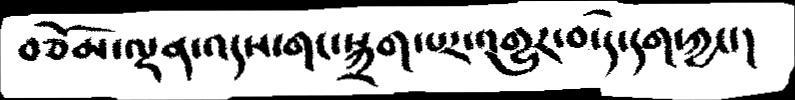བཅོམ་ལྡན་འདས་གང་སྐྲག་པར་འགྱུར་བ་དེ་དག་ཀྱང་།
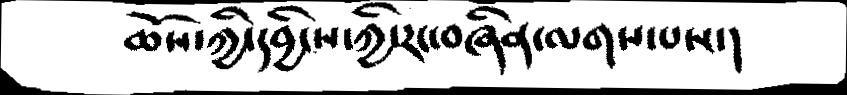ཆོས་ཀྱི་དབྱིངས་ཀྱི་རང་བཞིན་ལགས་པས་།
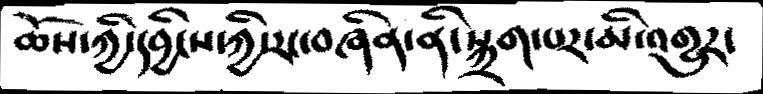ཆོས་ཀྱི་དབྱིངས་ཀྱི་རང་བཞིན་ནི་སྐྲག་པར་མི་འགྱུར་
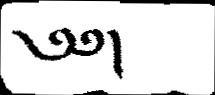༄༅།
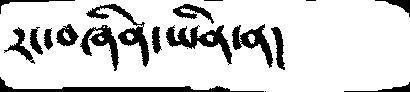རང་བཞིན་ཡིན་ན།
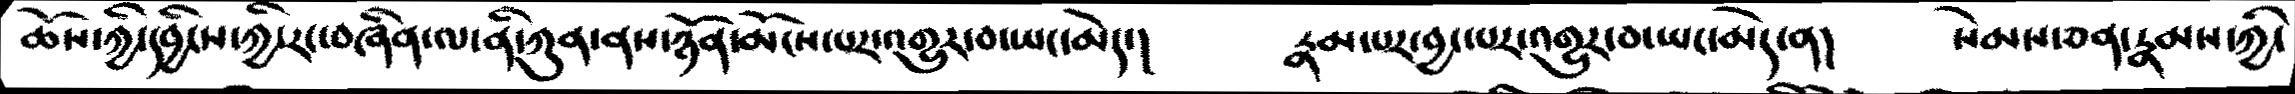ཆོས་ཀྱི་དབྱིངས་ཀྱི་རང་བཞིན་ནི་ཀུན་ནས་ཉོན་མོངས་པར་འགྱུར་བ་ཡང་མེད་།  རྣམ་པར་བྱང་པར་འགྱུར་བ་ཡང་མེད་ན།   སེམས་ཅན་རྣམས་ཀྱི་
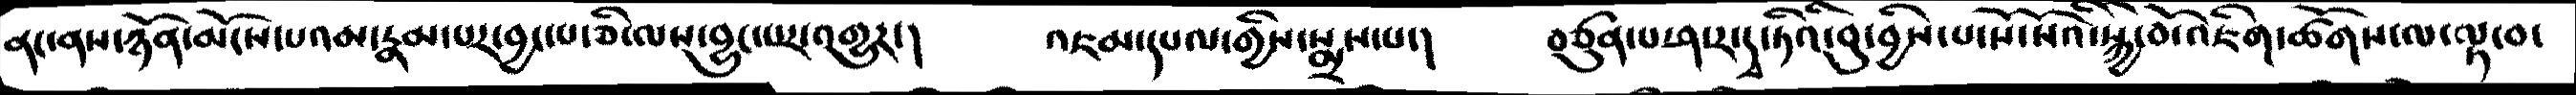ནང་ནས་ཉོན་མོངས་པའམ་རྣམ་པར་བྱང་པ་ཅི་ལས་བྱུང་པར་འགྱུར་།    འཇམ་དཔལ་གྱིས་སྨྲས་པ་།  བཙུན་པ་ཤ་ར་དྭ་ཏིའི་བུ་བྱིས་པ་སོ་སོའི་སྐྱེ་བོ་འཇིག་ཚོགས་ལ་ལྟ་བ་
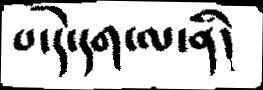པ་དེ་དག་ལ་ནི།
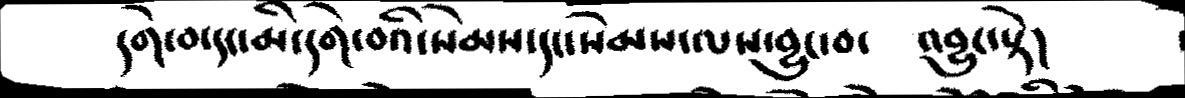དགེ་བ་དང་མི་དགེ་བའི་སེམས་དང་སེམས་ལས་བྱུང་བ་   འབྱུང་སྟེ།
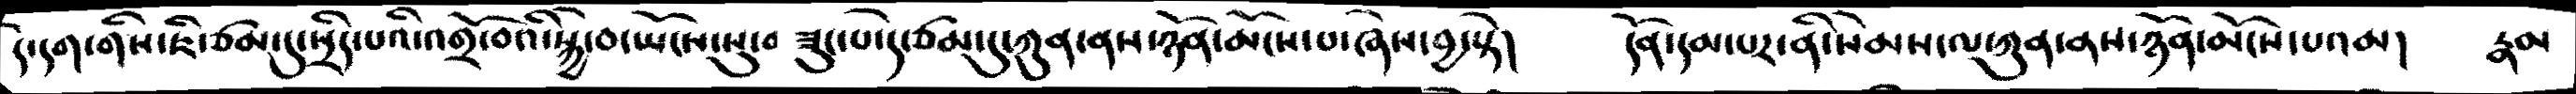དེ་དག་གིས་ཇི་ཙམ་དུ་སྲིད་པའི་འགྲོ་བའི་སྐྱེ་བ་ཡོངས་སུ་བ ཟུང་པ་དེ་ཙམ་དུ་ཀུན་ནས་ཉོན་མོངས་པ་ཞེས་བྱ་སྟེ།   དོན་དམ་པར་ནི་སེམས་ལ་ཀུན་ནས་ཉོན་མོངས་པའམ།   རྣམ
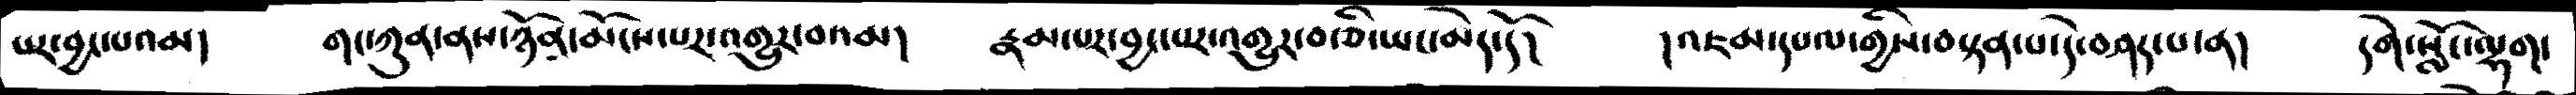པར་བྱང་པའམ།   གང་ཀུན་ནས་ཉོན་མོངས་པར་འགྱུར་བའམ།   རྣམ་པར་བྱང་པར་འགྱུར་བ་ཅི་ཡང་མེད་དོ།  །འཇམ་དཔལ་གྱིས་བསྟན་པ་དེ་བཤད་པ་ན།  དགེ་སློང་ལྷག་
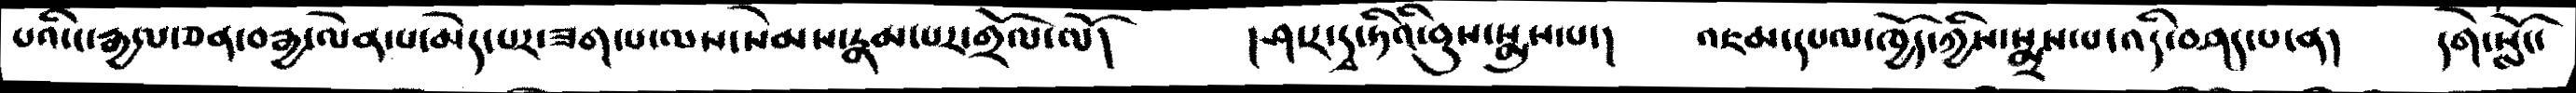པའི་ང་རྒྱལ་ཅན་བརྒྱ་ལེན་པ་མེད་པར་ཟག་པ་ལས་སེམས་རྣམ་པར་གྲོལ་་ལོ།  །ཤ་ར་དྭ་ཏིའི་བུས་སྨྲས་པ་།  འཇམ་དཔལ་ཁྱོད་ཀྱིས་སྨྲས་པ་འདི་བཤད་པ་ན།   དགེ་སློང་
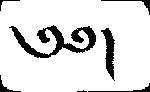༄༅།
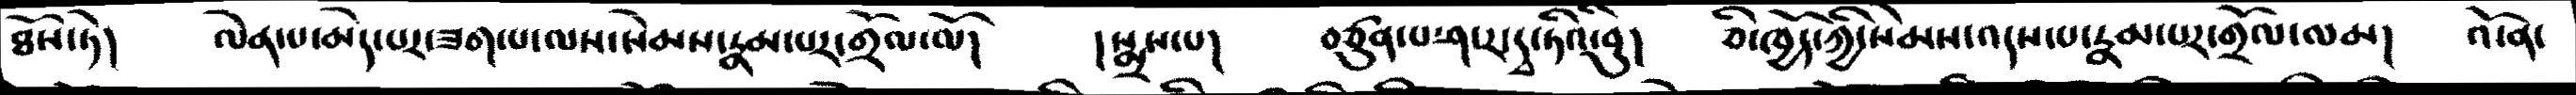ཐོས་ཏེ།  ལེན་པ་མེད་པར་ཟག་པ་ལས་སེམས་རྣམ་པར་གྲོལ་ལོ།   །སྨྲས་པ། བཙུན་པ་ཤ་ར་དྭ་ཏིའི་བུ།   ཅི་ཁྱོད་ཀྱི་སེམས་འདས་པ་རྣམ་པར་གྲོལ་ལམ། འོ་ན་
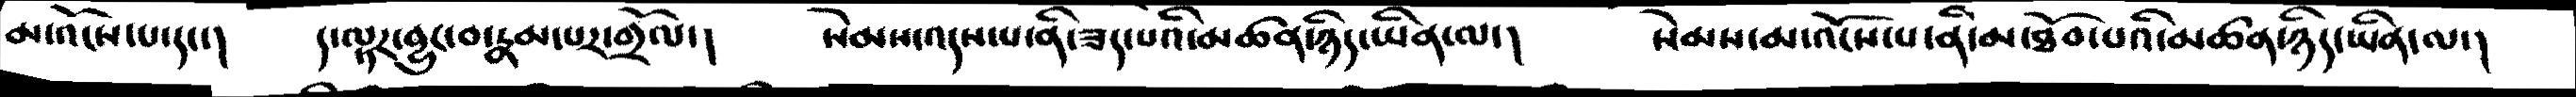མ་འོངས་པ་དང་།   ད་ལྟར་བྱུང་བ་རྣམ་པར་གྲོལ་།   སེམས་འདས་པ་ནི་ཟད་པའི་མཚན་ཉིད་ཡིན་ལ་།  སེམས་མ་འོངས་པ་ནི་མ་ཐོབ་པའི་མཚན་ཉིད་ཡིན་ལ་།
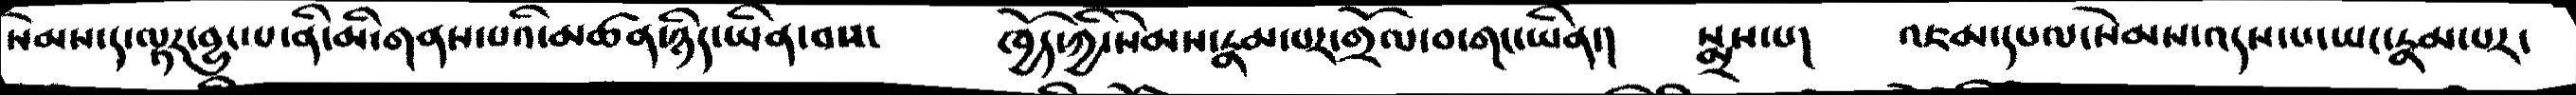སེམས་ད་ལྟར་བྱུང་པ་ནི་མོ་གནས་པའི་མཚན་ཉིད་ཡིན་བས་    ཁྱོད་ཀྱི་སེམས་རྣམ་པར་གྲོལ་བ་གང་ཡིན་།   སྨྲས་པ།  འཇམ་དཔལ་སེམས་འདས་པ་ཡང་རྣམ་པར་
